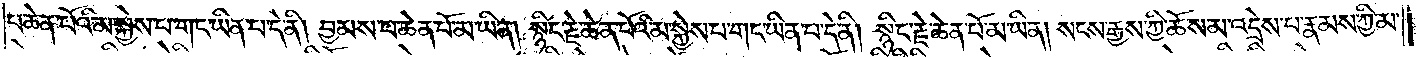པ་ཆེན་པོའི་མ་སྐྱེས་པ་གང་ཡིན་པ་དེ་ནི། བྱམས་པ་ཆེན་པོ་མ་ཡིན། སྙིང་རྗེ་ཆེན་པོའི་མ་སྐྱེས་པ་གང་ཡིན་པ་དེ་ནི། སྙིང་རྗེ་ཆེན་པོ་མ་ཡིན། སངས་རྒྱས་ཀྱི་ཆོས་མ་འདྲེས་པ་རྣམས་ཀྱི་མ་
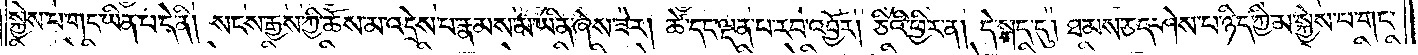སྐྱེས་པ་གང་ཡིན་པ་དེ་ནི། སངས་རྒྱས་ཀྱི་ཆོས་མ་འདྲེས་པ་རྣམས་མ་ཡིན་ཞེས་ཟེར། ཚེ་དང་ལྡན་པ་རབ་འབྱོར། ཅིའི་ཕྱིར་ན། དེ་སྐད་དུ། ཐམས་ཅད་ཤེས་པ་ཉིད་ཀྱི་མ་སྐྱེས་པ་གང་
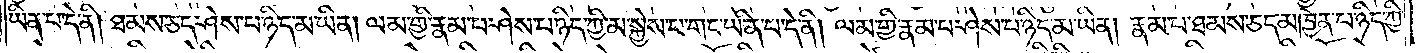ཡིན་པ་དེ་ནི། ཐམས་ཅད་ཤེས་པ་ཉིད་མ་ཡིན། ལམ་གྱི་རྣམ་པ་ཤེས་པ་ཉིད་ཀྱི་མ་སྐྱེས་པ་གང་ཡིན་པ་དེ་ནི། ལམ་གྱི་རྣམ་པ་ཤེས་པ་ཉིད་མ་ཡིན། རྣམ་པ་ཐམས་ཅད་མཁྱེན་པ་ཉིད་ཀྱི་
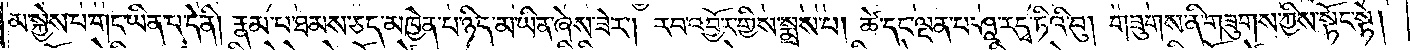མ་སྐྱེས་པ་གང་ཡིན་པ་དེ་ནི། རྣམ་པ་ཐམས་ཅད་མཁྱེན་པ་ཉིད་མ་ཡིན་ཞེས་ཟེར། རབ་འབྱོར་གྱིས་སྨྲས་པ། ཚེ་དང་ལྡན་པ། ཤཱ་ར་དྭ་ཏིའི་བུ། གཟུགས་ནི་གཟུགས་ཀྱིས་སྟོང་སྟེ།
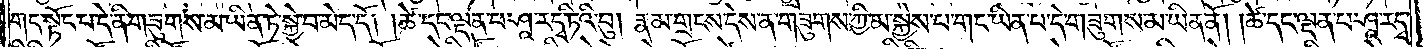གང་སྟོང་པ་དེ་ནི་གཟུགས་མ་ཡིན་ཏེ་སྐྱེ་བ་མེད་དོ། །ཚེ་དང་ལྡན་པ་ཤཱ་ར་དྭ་ཏིའི་བུ། རྣམ་གྲངས་དེས་ན་གཟུགས་ཀྱི་མ་སྐྱེས་པ་གང་ཡིན་པ་དེ་གཟུགས་མ་ཡིན་ནོ། །ཚེ་དང་ལྡན་པ་ཤཱ་ར་དྭ་
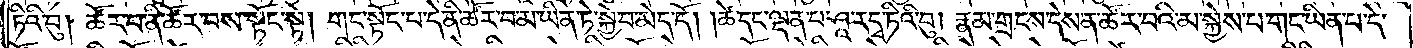ཏིའི་བུ། ཚོར་བ་ནི་ཚོར་བས་སྟོང་སྟེ། གང་སྟོང་པ་དེ་ནི་ཚོར་བ་མ་ཡིན་ཏེ་སྐྱེ་བ་མེད་དོ། །ཚེ་དང་ལྡན་པ་ཤཱ་ར་དྭ་ཏིའི་བུ། རྣམ་གྲངས་དེས་ན་ཚོར་བའི་མ་སྐྱེས་པ་གང་ཡིན་པ་དེ་
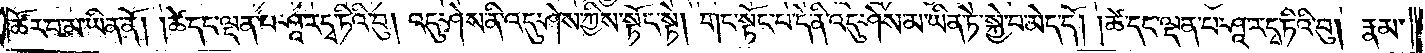ཚོར་བ་མ་ཡིན་ནོ། །ཚེ་དང་ལྡན་པ་ཤཱ་ར་དྭ་ཏིའི་བུ། འདུ་ཤེས་ནི་འདུ་ཤེས་ཀྱིས་སྟོང་སྟེ། གང་སྟོང་པ་དེ་ནི་འདུ་ཤེས་མ་ཡིན་ཏེ་སྐྱེ་བ་མེད་དོ། །ཚེ་དང་ལྡན་པ་ཤཱ་ར་དྭ་ཏིའི་བུ། རྣམ་
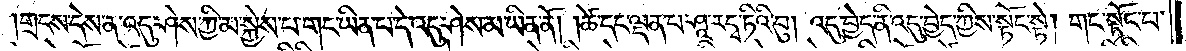གྲངས་དེས་ན་འདུ་ཤེས་ཀྱི་མ་སྐྱེས་པ་གང་ཡིན་པ་དེ་འདུ་ཤེས་མ་ཡིན་ནོ། །ཚེ་དང་ལྡན་པ་ཤཱ་ར་དྭ་ཏིའི་བུ། འདུ་བྱེད་ནི་འདུ་བྱེད་ཀྱིས་སྟོང་སྟེ། གང་སྟོང་པ་
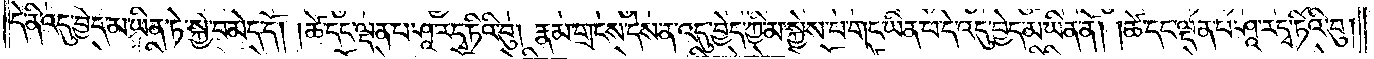དེ་ནི་འདུ་བྱེད་མ་ཡིན་ཏེ་སྐྱེ་བ་མེད་དོ། །ཚེ་དང་ལྡན་པ་ཤཱ་ར་དྭ་ཏིའི་བུ། རྣམ་གྲངས་དེས་ན་འདུ་བྱེད་ཀྱི་མ་སྐྱེས་པ་གང་ཡིན་པ་དེ་འདུ་བྱེད་མ་ཡིན་ནོ། །ཚེ་དང་ལྡན་པ་ཤཱ་ར་དྭ་ཏིའི་བུ།
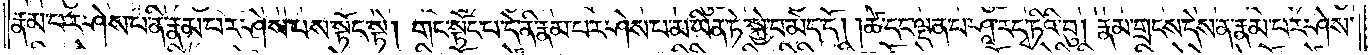རྣམ་པར་ཤེས་པ་ནི་རྣམ་པར་ཤེས་པས་སྟོང་སྟེ། གང་སྟོང་པ་དེ་ནི་རྣམ་པར་ཤེས་པ་མ་ཡིན་ཏེ་སྐྱེ་བ་མེད་དོ། །ཚེ་དང་ལྡན་པ་ཤཱ་ར་དྭ་ཏིའི་བུ། རྣམ་གྲངས་དེས་ན་རྣམ་པར་ཤེས་
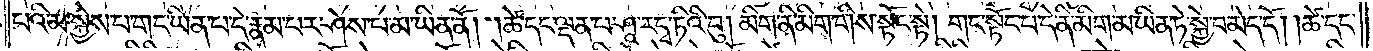པའི་མ་སྐྱེས་པ་གང་ཡིན་པ་དེ་རྣམ་པར་ཤེས་པ་མ་ཡིན་ནོ། །ཚེ་དང་ལྡན་པ་ཤཱ་ར་དྭ་ཏིའི་བུ། མིག་ནི་མིག་གིས་སྟོང་སྟེ། གང་སྟོང་པ་དེ་ནི་མིག་མ་ཡིན་ཏེ་སྐྱེ་བ་མེད་དོ། །ཚེ་དང་
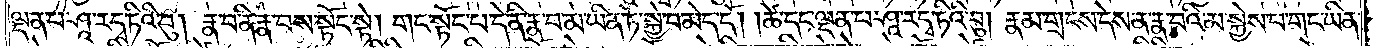ལྡན་པ་ཤཱ་ར་དྭ་ཏིའི་བུ། རྣ་བ་ནི་རྣ་བས་སྟོང་སྟེ། གང་སྟོང་པ་དེ་ནི་རྣ་བ་མ་ཡིན་ཏེ་སྐྱེ་བ་མེད་དོ། །ཚེ་དང་ལྡན་པ་ཤཱ་ར་དྭ་ཏིའི་བུ། རྣམ་གྲངས་དེས་ན་རྣ་བའི་མ་སྐྱེས་པ་གང་ཡིན་
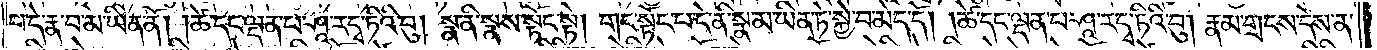པ་དེ་རྣ་བ་མ་ཡིན་ནོ། །ཚེ་དང་ལྡན་པ་ཤཱ་ར་དྭ་ཏིའི་བུ། སྣ་ནི་སྣས་སྟོང་སྟེ། གང་སྟོང་པ་དེ་ནི་སྣ་མ་ཡིན་ཏེ་སྐྱེ་བ་མེད་དོ། །ཚེ་དང་ལྡན་པ་ཤཱ་ར་དྭ་ཏིའི་བུ། རྣམ་གྲངས་དེས་ན་
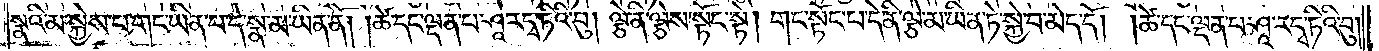སྣའི་མ་སྐྱེས་པ་གང་ཡིན་པ་དེ་སྣ་མ་ཡིན་ནོ། །ཚེ་དང་ལྡན་པ་ཤཱ་ར་དྭ་ཏིའི་བུ། ལྕེ་ནི་ལྕེས་སྟོང་སྟེ། གང་སྟོང་པ་དེ་ནི་ལྕེ་མ་ཡིན་ཏེ་སྐྱེ་བ་མེད་དོ། །ཚེ་དང་ལྡན་པ་ཤཱ་ར་དྭ་ཏིའི་བུ།
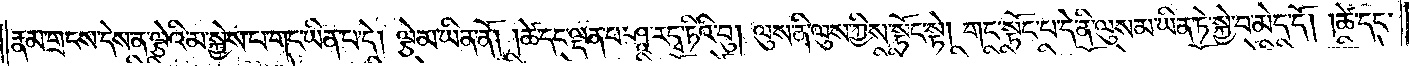རྣམ་གྲངས་དེས་ན་ལྕེའི་མ་སྐྱེས་པ་གང་ཡིན་པ་དེ། ལྕེ་མ་ཡིན་ནོ། །ཚེ་དང་ལྡན་པ་ཤཱ་ར་དྭ་ཏིའི་བུ། ལུས་ནི་ལུས་ཀྱིས་སྟོང་སྟེ། གང་སྟོང་པ་དེ་ནི་ལུས་མ་ཡིན་ཏེ་སྐྱེ་བ་མེད་དོ། །ཚེ་དང་
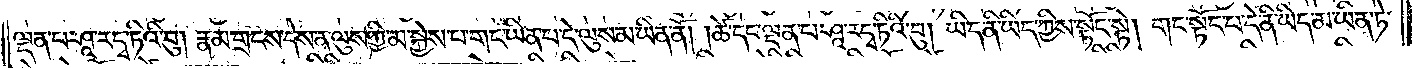ལྡན་པ་ཤཱ་ར་དྭ་ཏིའི་བུ། རྣམ་གྲངས་དེས་ན་ལུས་ཀྱི་མ་སྐྱེས་པ་གང་ཡིན་པ་དེ་ལུས་མ་ཡིན་ནོ། །ཚེ་དང་ལྡན་པ་ཤཱ་ར་དྭ་ཏིའི་བུ། ཡིད་ནི་ཡིད་ཀྱིས་སྟོང་སྟེ། གང་སྟོང་པ་དེ་ནི་ཡིད་མ་ཡིན་ཏེ་
